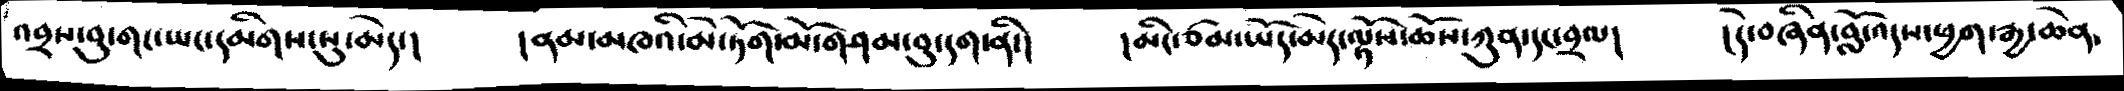འབྲས་བུ་གང་ཡང་དམིགས་སུ་མེད་།   །ནམ་མཁའི་མེ་ཏོག་མོ་གཤམ་བུ་དག་ནི་།    །མིང་ཙམ་ཡོད་མེད་ལྟོས་ཆོས་ཀུན་དང་བྲལ།    །དེ་བཞིན་བློ་འདས་ཕྱག་རྒྱ་ཆེན་
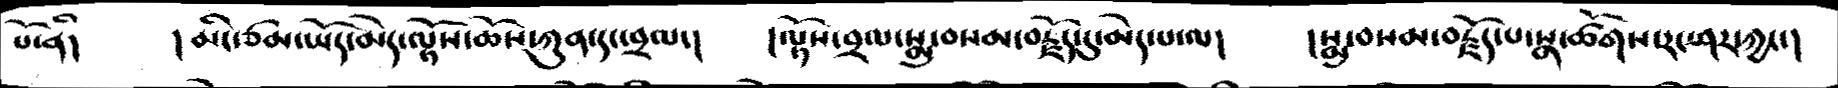པོ་ནི།  །མིང་ཙམ་ཡོད་མེད་ལྟོས་ཆོས་ཀུན་དང་བྲལ་།   །ལྟོས་བྲལ་སྨྲ་བསམ་བརྗོད་དུ་མེད་པ་ལ།   །སྨྲ་བསམ་བརྗོད་པ་སྣ་ཚོགས་རང་ཤར་ཀྱང་།
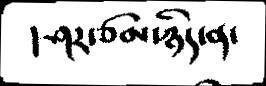།ཤར་ཙམ་ཉིད་ན་
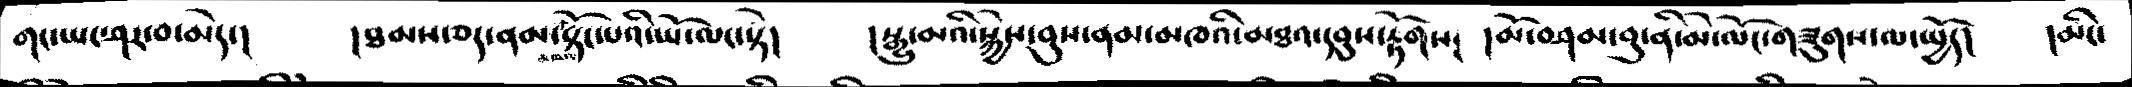གང་ཡང་ཤར་བ་མེད་།   །ཐམས་ཅད་ནམ་མཁའ་སྟོང་པའི་ཡོ་ལང་སྟེ།   །སྒྱུ་མའི་སྐྱེས་བུས་ནམ་མཁའི་མཐའ་དབུས་རྟོགས།   །མོ་བཤམ་བུ་ནི་མེ་ལོང་གཟུགས་ལ་སྤྱོད།  །མིང་
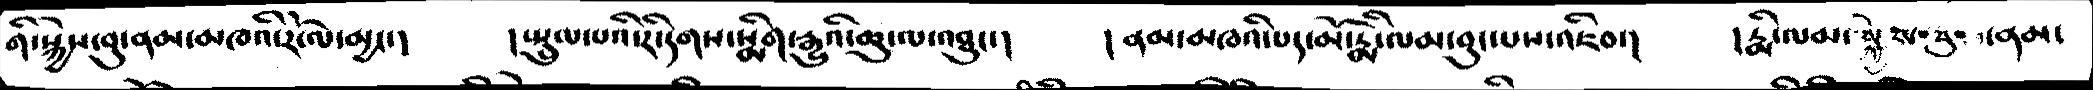གི་སྐྱེས་བུ་ནམ་མཁའི་རོ་ལ་མྱང་།   །སྤྲུལ་པའི་རི་དགས་སྨིག་རྒྱུའི་ཆུ་ལ་འཐུང་།   །ནམ་མཁའི་པད་མོ་རྨི་ལམ་བུང་པས་འཇིབ་།   །རྨི་ལམ་སྐྱེས་བུ་ནམ་
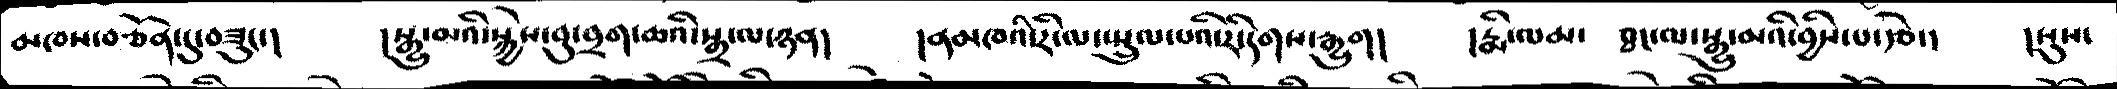མཁས་བཙོན་དུ་བཟུང་།   །སྒྱུ་མའི་སྐྱེས་བུ་བྲག་ཆའི་སྒྲ་ལ་ཉན།   །ནམཁའི་རི་ལ་སྤྲུལ་པའི་རི་དགས་རྒྱུག།   །རྨི་ལམ་  ཐང་ལ་སྒྱུ་མའི་བྱིས་པ་རྩེ་།   །སུས་
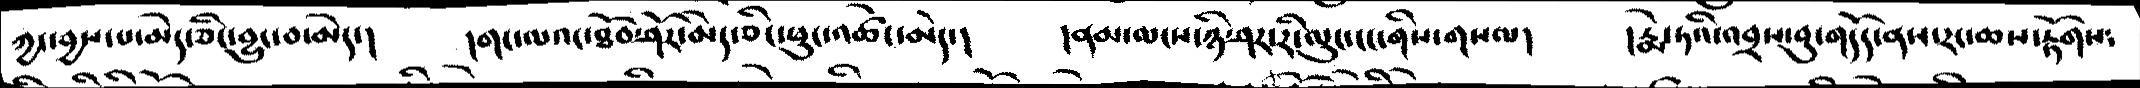ཀྱང་བྱས་པ་མེད་ཅིང་བྱུང་བ་མེད་།  །གང་ལའང་ཐོབ་ཤོར་མེད་ཅིང་ཕུང་འཚེང་མེད་།   །ནམ་ལངས་ཉི་ཤར་རི་ལུང་ངང་གིས་གསལ།   །རྨེ་ཏའི་འབྲས་བུ་གདོད་ནས་རང་ཆས་རྟོགས༴
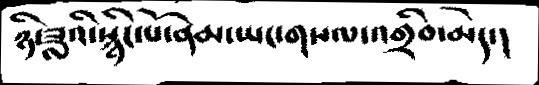ཉི་ཟླའི་སྙིང་པོ་ནམ་ཡང་གསལ་འགྲིབ་མེད་།
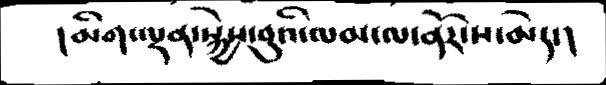།མིག་ལྡན་སྐྱེས་བུའི་ལམ་ལ་ནོར་ས་མེད་།
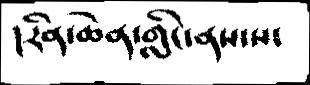།རིན་ཆེན་གླིང་ནས་ས་
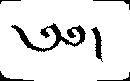༄༅།
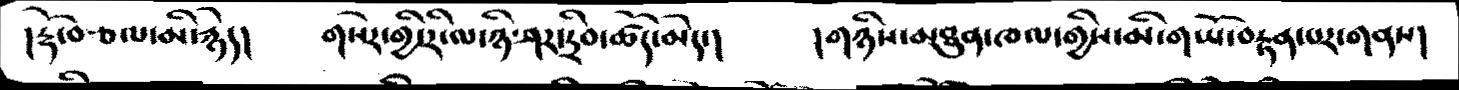།རྡོ་བཅལ་མི་རྙེད།    གསེར་གྱི་རི་ལ་ཉི་ཤར་དྲིབ་ཚོད་མེད་།    །གཉིས་མཐུན་ཁལ་གྱིས་མི་གཡོ་བརྟན་པར་གནས།
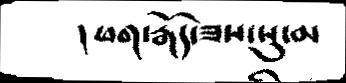།ཕག་རྒོད་ཟས་སུ་མ
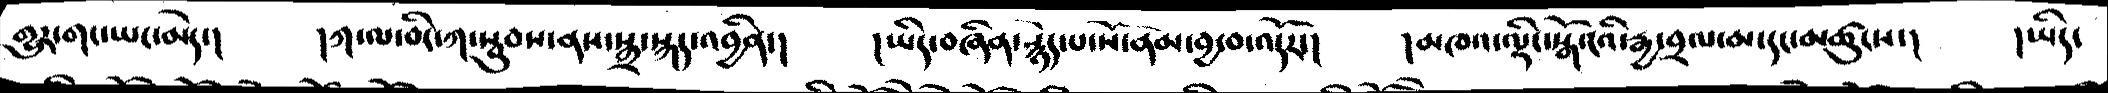གྱུར་གང་ཡང་མེད་།  ཀ་ལ་བིང་ཀ་སྦུབས་ནས་སྒྲ་སྐད་འབྱིན་།   །ཡིད་བཞིན་སྙེད་པ་སོ་ནམ་བྱ་བ་འདོར་།   །མཁའ་ལྡིང་སྒོ་ངའི་རྒྱ་བྲལ་མ་དང་མཚུངས་།   །ཡིད་
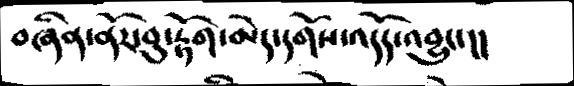བཞིན་ནོར་བུ་རྟོག་མེད་དགོས་འདོད་འབྱུང་།།
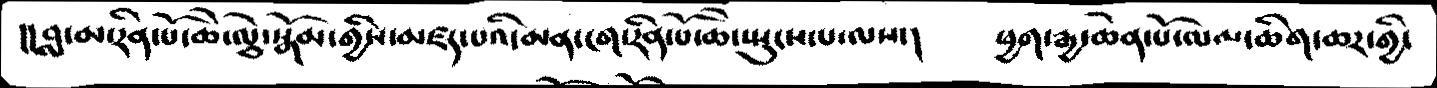།།བླ་མ་རིན་པོ་ཆེ་ལྕེ་སྒོམ་གྱིས་མཛད་པའི་མན་ངག་རིན་པོ་ཆེ་སྤུངས་པ་ལས་།   ཕྱ་རྒྱ་ཆེན་པོ་ལམ་ཆིག་ཆར་གྱི་
